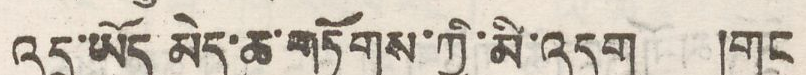འདྲ་ཡོད་མེད་ཆ་གཏོགས་ཀྱི་མི་འདུག །གང
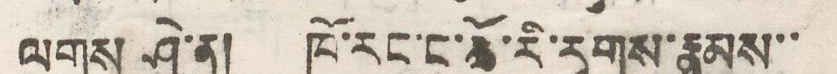ལགས ཤེ་ན། ཁོ་རང་ང་ཚོ་རི་རྭགས་རྣམས་་
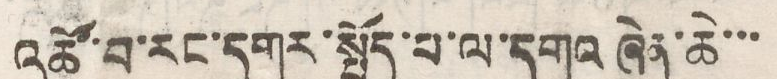འཚོ་བ་རང་དགར་སྤྱོད་པ་ལ་དགའ ཞེན་ཆེ་་་
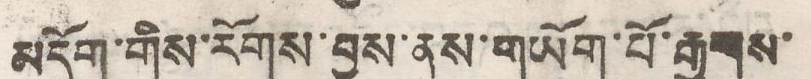མདོག་གིས་རིགས་བྱས་ནས་གཡོག་པོ་རྒྱུགས་
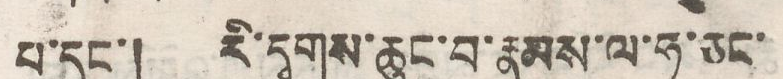པ་དང་། རི་དྭགས་ཆུང་བ་རྣམས་ལ་ཧ་ཅང་
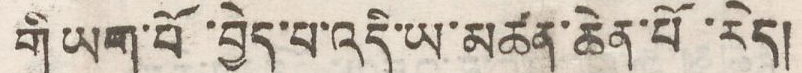གི ཡག་པོ་བྱེད་པ་འདི་ཡ་མཚན་ཆེན་པོ་རེད།
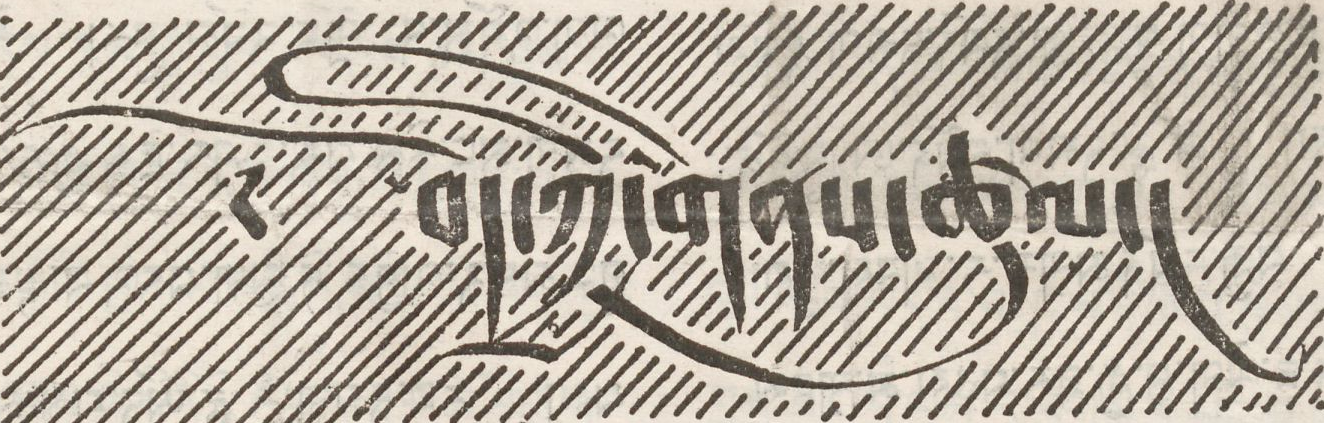༄ བོད་ཀྱི་གནས་ཚུལ།
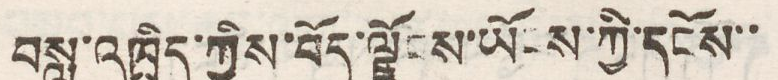བསླུ་འཁྲིད་ཀྱིས་བོད་ལྗོངས་ཡོངས་ཀྱི་དངོས་་
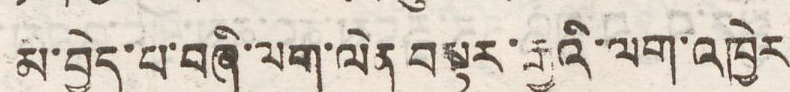མ་བྱེད་པ་བཞི་ལག་ལེན་བསྟར་རྒྱུའི་ལག་འཁྱེར
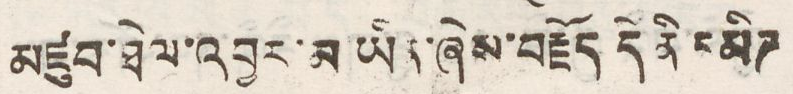མཛུབ་ཐེལ་འབྱར་མ ཡིན་ཞེས་བརྗོད དེ ནི དམིཌ
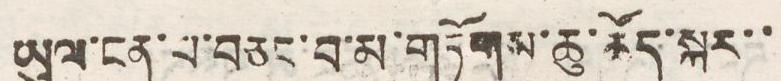ཡུལ་ངན་པ་བཅང་བ་མ་གཏོགས་ཆུ་ཚོད་སྐར་་
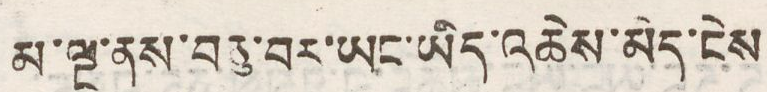མ་ལྔ་ནས་བཅུ་བར་ཡང་ཡིད་འཆེས་མེད་ངེས
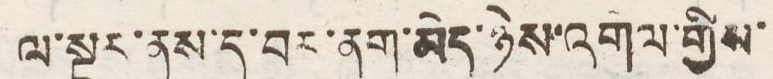ལ་སྔར་ནས་ད་བར་ནག་མེད་ཉེས་འགལ་གྱིས་
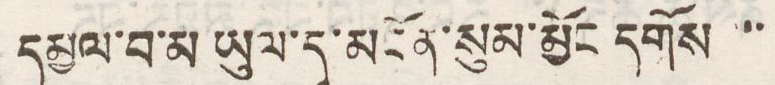དམྱལ་བ་མ ཡུལ་དུ་མངོན་སུམ་མྱོང དགོས་་
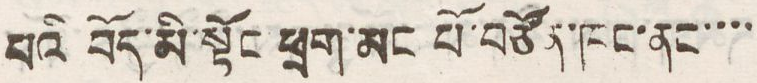པའི བོད་མི་སྟོང་ཕྲག་མང་པོ་བཙོན་ཁང་ནང་་་་
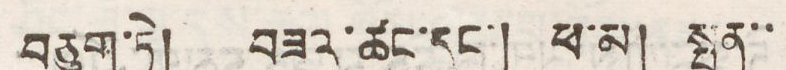བཅུག་ཏེ། བཟའ་ཚང་དང་། ཕ་མ། སྤུན་་་
